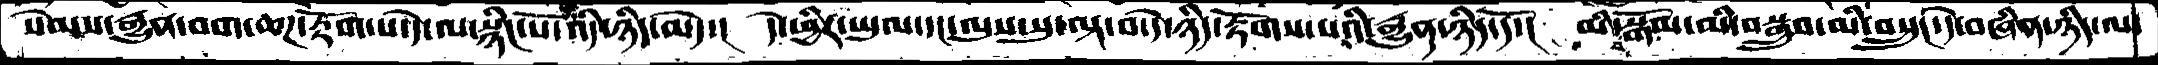སེམས་རྒྱུན་བག་ཆཌ་རྟོག་པ་དེ་ལ་སྙིང་པོ་འདི་ཉིད་མེད་།  དེ་ཕྱིར་ཡུལ་དང་ལུས་སུ་ལྟ་བ་དེ་ཉིད་རྟོགས་པའི་རྒྱུན་ཉིད་དོ་།  མི་བསྒོམ་མི་བསྒྲུབ་མི་བསྲུང་དེ་བཞིན་ཉིད་ལ་
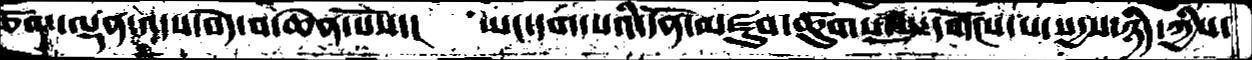ཅོམ་ལྡན་འདས་བདེ་བ་ཆེན་པོས་།    ཡང་དག་པའི་དོན་མཛུབ་ཚུགས་སུ་དགོངས་པ་སདྱས་ཉིད་ཀྱིས་
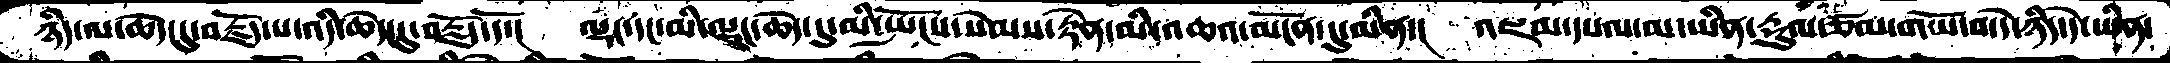ཉིད་ལ་ཆེད་དུ་བརྗོད་པ་འདི་ཆེད་དུ་བརྗོད་དོ་།  ལྡང་དང་མི་ལྡང་ཆེད་དུ་མི་སྤོངས་སེམས་རྟེན་འཆའ་མངོན་དུ་མིན་།  འཇལ་དཔལ་མ་ཡིན་རྡུལ་ཙམ་གཡོ་བ་དེ་ཉིད་དེ་ཡིན་
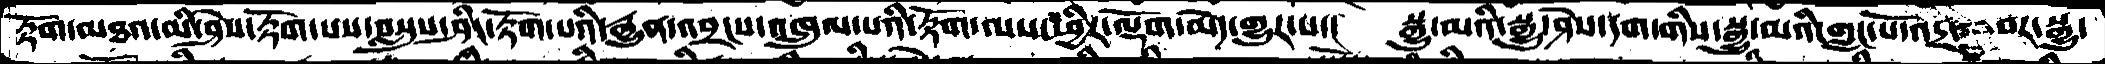རྟོག་མཐའ་མི་ཤེས་རྟོག་པས་བསླུས་ཤིང་རྟོག་པའི་རྒྱུན་འབྲངས་འཁྲུལ་པའི་རྟོག་ལས་ཕྱིར་ལྡོག་མེད་གྱུར་པ་།  སྒྱུ་མའི་སྒྱུ་ཤེས་དག་གིས་སྒྱུ་མའི་གླང་པོ་འདྲ་བར་སྒྱུ་
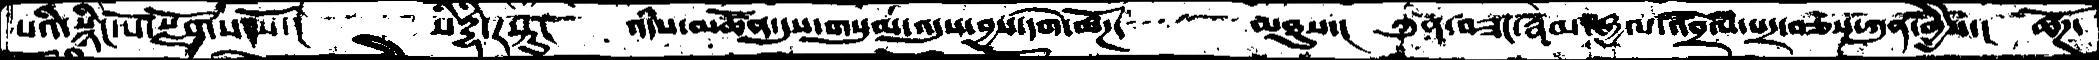པའི་སྙིང་པོ་སྫོགས་སོ་།   སིཏྡྷི་རསྟུ།   འདིས་མཚོན་དུས་གསུམ་འདུས་བྱས་དགེ་ཚོཌ་་་་་་་མཐུས་།  ཀུན་བཟང་རྣམ་རྒྱལ་འབྲེལ་པར་བཅས་ཀུན་གྱིས་།  ཚོཌ་
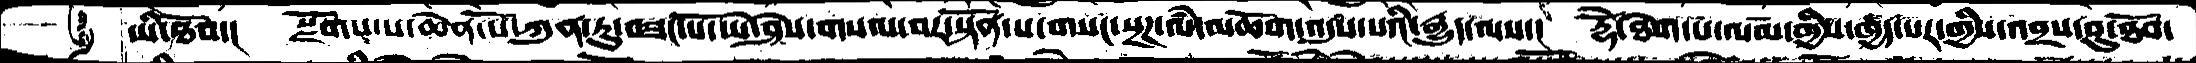ཡི་ཐོབ་།  སྫོགས་པ་ཆེན་པོ་ཀུན་ཏུ་བཟང་པོ་ཡེ་ཤེས་གསལ་བར་སྟོན་པ་གསང་སྔཌ་ལཾ་མཆོག་འདུས་པའི་རྒྱུད་ལས་།  རྡོེ་ཐེག་པ་ལམ་གྱིས་ཁྱད་པར་གྱིས་འབྲས་བུ་ཐོབ་
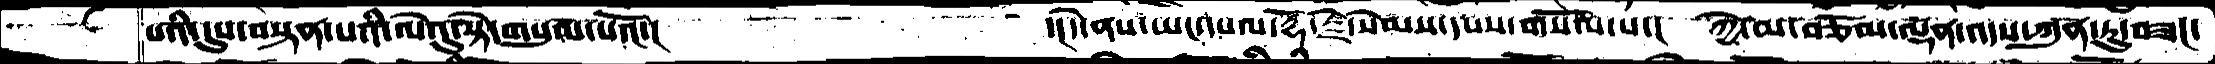པའི་དུས་བསྟན་པའི་ལེའུ་སྟེ་གསུམ་པའོ་།    ་།དེ་ནས་ཡང་དཔལ་རྡོ་རྗེ་སེམས་དཔས་གསོལ་པ་།  ཀྱེ་མ་བཅོམ་ལྡན་འདས་ཀུན་ཏུ་བཟང་
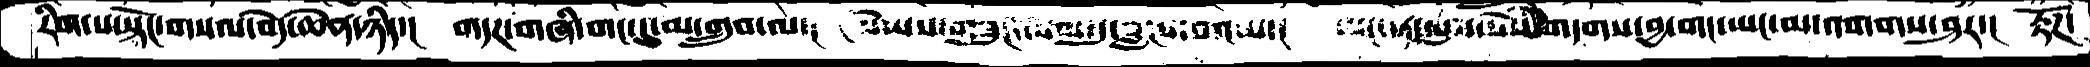རིག་པ་སྟོང་གསལ་བདེ་ཆེན་ཉིད་།  གདཌ་གཞི་གང་དུ་མ་གྲུབ་ལ་།  སེམས་གཟུང་ལམ་དུ་བླངས་བའི་ས་།  ཡང་ན་ལུས་སེསཾ་གདགས་བྱ་གང་ཡང་མ་འགགས་ཤར་། རྟོཌ་
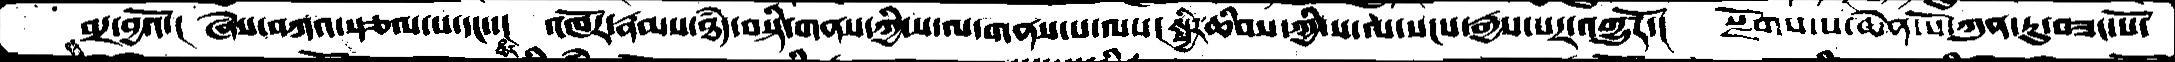བར་བྱའོ་།  ཞེས་བཀའ་སྩལ་པ་དང་་།  འཁོར་རྣམས་ཐཾད་བསྟི་གནས་ཀྱི་ས་ལ་གནས་པ་ལས། སྤྱིར་ཆིབས་ཀྱི་ས་ལ་སངས་རྒྱས་པར་འགྱུརོ་།  སྫོགས་པ་ཆེན་པོ་ཀུན་ཏུ་བཟང་པོ་
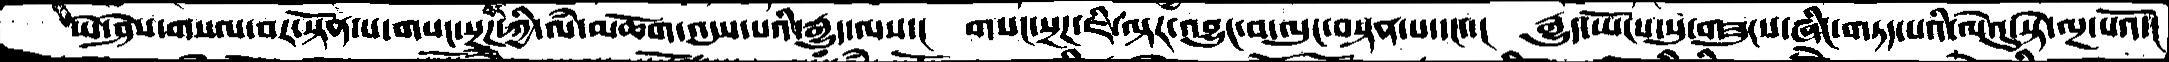ཡེ་ཤེས་གསལ་བར་སྟོན་པ་གསང་སྔཌ་ཀྱི་ལཾ་མཆོག་འདུས་པའི་རྒྱུད་ལས་།  གསང་སྔཌ་ཇི་ལྟར་འབྱུང་བ་ལུང་བསྟན་པ་དང་་། རྒྱུད་ཡོངས་སུ་གཟུངས་ཞིང་གཏད་པའི་ལེའུ་སྟེ་ལྔ་པའོ་།
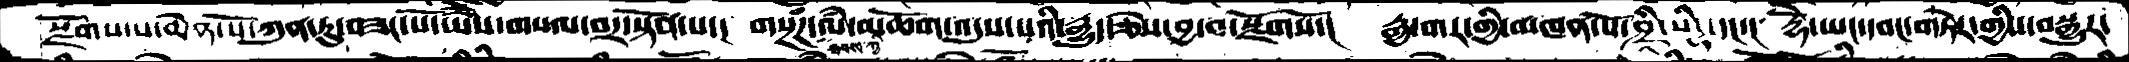སྫོགས་པ་ཆེན་པོ་ཀུན་ཏུ་བཟང་པོ་ཡཻས་གསལ་བར་སྟོན་པ་།  གསྔཾཌ་ཐབས་ཀྱི་ལཾ་མཆོག་འདུས་པའི་རྒྱུད་ཅེས་བྱ་བ་སྫོགསོ་།  རྒྱ་གར་གྱི་མཁན་པོ་ཤྲྲི་སིངྷ་དང་། རྡོེ་ཡང་དབང་གཏེར་གྱིས་བསྒྱུར་
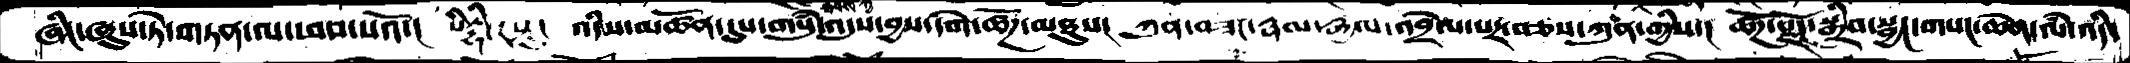ཞིང་ཞུས་ཏེ་གཏན་ལ་ཕབ་པའོ་།  སིཏྡྷི་རསྟུ།  འདིས་མཚོན་དུས་གསུཾ་འདུས་བྱས་དགེ་ཚོཌ་མཐུས། ཀུན་བཟང་རྣམ་རྒྱལ་འབྲེལ་པར་བཅས་ཀུན་གྱིས་། ཚོཌ་སྫོཌ་སྒྲིབ་སྦྱང་གསང་ཆེན་ལཾ་འདི་
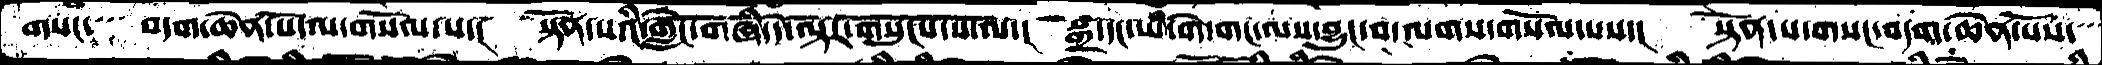གསང་་་བདག་ཆེན་པོ་ལ་གསོལ་པ་།  སྟོན་པའི་གླེང་གཞི་དེ་ལྟར་གསུངས་པ་ལ་།  སྒྲ་དང་ཡི་གེ་གང་ལས་བྱུང་བ་ལགས་གསོལ་པས་།  སྟོན་པ་གསང་བདག་ཆེན་པོས་
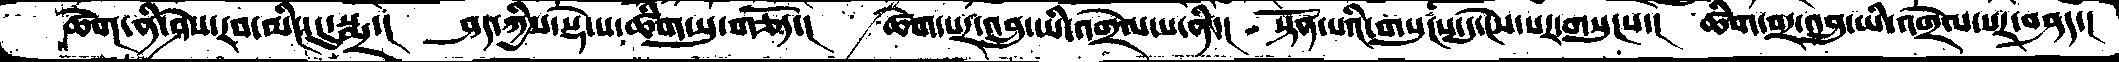ཚེག་ནི་ཤེས་རབ་མིང་དུ་སྨྲ་། ཤད་ཀྱིས་སྡེ་པ་ཚིག་སུ་གཅོད་། ཚེག་པར་འབྲུ་ཡི་འགྲེལ་པ་ནི་། སྟོན་པའི་གསུངས་དུ་ངེས་པར་གསུངས་།  ཚིག་བར་འབྲུ་ཡི་འགྲེལ་པར་བཤད་།
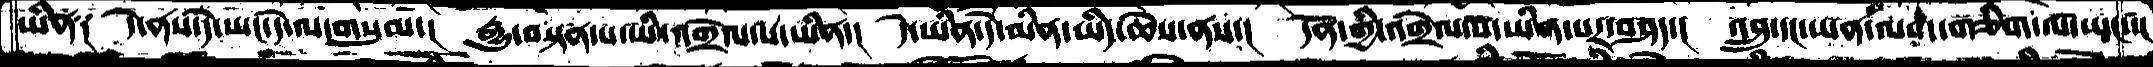ཡིན༑ དེ་ནས་དེ་ཡང་དེ་ལ་གསུམ་།  རྒྱུ་བསྟན་པ་ཡི་འགྲེལ་པ་ཡིན་། དེ་ཡིན་དེ་མིན་ཡིད་ཆེས་ནས་། དོན་གྱི་འགྲེལ་པ་ཡིན་པར་བཤད་། འབྲུ་དང་ཡན་ལག་གཅིག་ལ་ཡང་་།
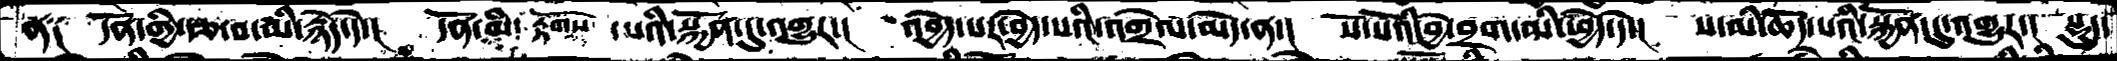ན༑ དོན་གྱི་རྩ་བ་མི་རྙེད་དེ་།  དོན་མི་རྟོགས་པའི་སྐྱོན་དུ་འགྱུར་།  འབྱེད་པར་བྱེད་པའི་འགྲེལ་མེད་ན་། སོ་སོའི་བྱེ་བྲག་མི་ཕྱེད་དེ་། ས་མི་ཆོད་པའི་སྐྱོན་དུ་འགྱུར་།  སྡུད་
